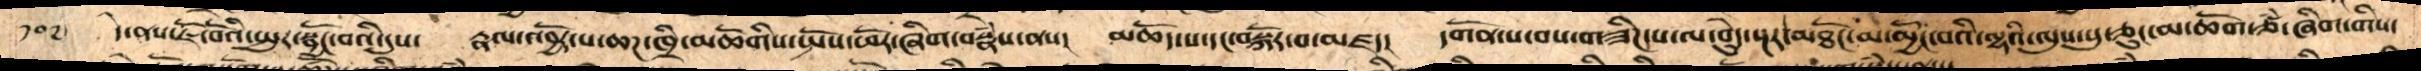༡༠༧  དེ་ནས་ཇོ་བོའི་སྤུར་སྦྱོང་བའི་དུས་   རྣལ་འབྱོར་པ་ཆཌ་ཁྲི་མཆོགིས་སྤོས་ཕོར་ཞིག་བསྣཾས་ནས།   མཆོད་པ་དང་བསྐོར་བ་མཛད།   དགོན་པ་བས་གཟིཌ་པ་ལ་བེུད་སྔར་མཐོང་མ་མྱོང་བ་ལྷའི་ལུས་སུ་ཅུང་མ་ཆོག་ཙཾ་ཞིག་གིས་
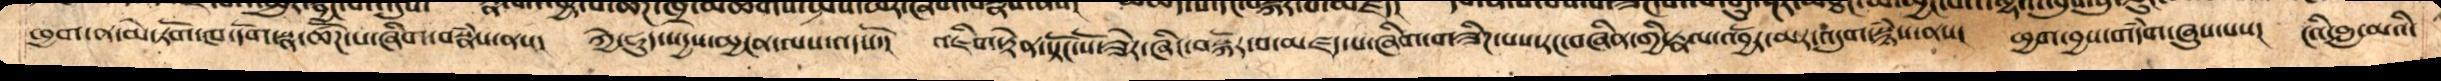ཕྱག་ན་མེ་ཏོག་ཁ་དོག་སྣ་ཚོཌ་པ་ཞིག་བསྣཾས་ནས།  ཀྱེ་ཧུད་སདྱས་མྱ་ངན་ལས་འདསོ་།  འཇིག་རྟེན་སྟོང་སོ་ཟེར་ཞིང་བསྐོར་བ་མཛད་པ་ཞིག་གཟིཌ་པས་རང་བཞིན་གྱི་རྣལ་འབྱོར་མར་འདུག་སྙཾས་ནས། ཕྱག་བྱས་གདཾག་ཞུས་པས། ངའི་བླ་མའི་
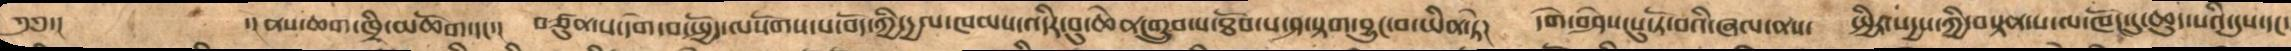༄༅་།     ་།ནས་ཆག་ཁྲི་མཆོག་དང་།   བཙུན་པ་དགེ་བ་སྤྱོད་ལསོགས་པ་བོད་ཀྱི་དྱལ་ཁམས་འདིར་བུ་ཆེན་གྲུབ་པ་ཐོབ་པ་ཤ་སྟག་བྱུང་བ་ཡིན་ཏེ།   དགེ་བཤེས་པུ་ཏོ་བའི་ཞལ་ནས།   སྤྱིར་སདྱས་ཀྱི་བསྟན་པ་ལ་ཁོང་དུ་ཆུད་པའི་དུས་དང་
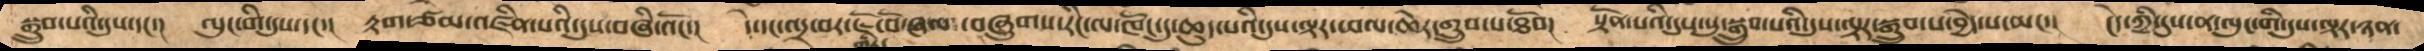སྒྲུབ་པའི་དུས་དང་།  ལུང་གི་དུས་དང་།  རྟག་ཙམ་འཛིན་པའི་དུས་བཞི་འོང་།    དེ་དང་འདྲ་བར་ཇོ་བོ་ཞལ་བཞུགས་རིང་ལ་ཁོང་དུ་ཆུད་པའི་དུས་ལྟར་ཕལ་ཆེར་གྲུབ་པ་ཐོབ།   སྟོན་པའི་དུས་སུ་སྒྲུབ་པའི་དུས་ལྟར་སྒྲུབ་པ་བྱེད་པ་མང་།   ངེད་ཀྱི་དུས་ན་ལུང་གི་དུས་ལྟར་ཉན་
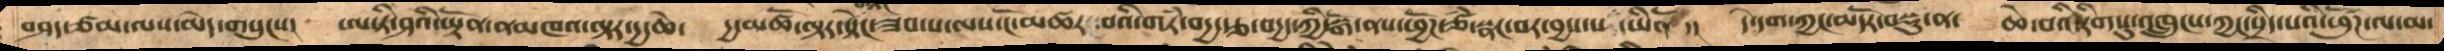བཤད་ཙམ་ལས་མེད་གསུངས།   ཨ་ཏི་ཤའི་ཡྟོན་ནམཁའ་ལྟར་དྱ་ཆེ།   རྒྱ་མཚོ་ལྟར་སྟེང་ཟབ་པ་ལས་ངོ་མཚར་བའི་གཏཾ་བདྱ་རྩ་བདྱད་ཀྱི་སྒོ་ནས་ཕྱོཌ་ཙཾ་སྣང་བར་བྱས་པ་ཡིན་ནོ།   དེ་དག་ཀྱང་མདོར་བསྡུ་ན་  ཆེ་བའི་རིགསུ་སྐུ་འཁྲུངས་ཀྱང་སྲིད་པའི་ཕུཚོཌ་ལ་མ་
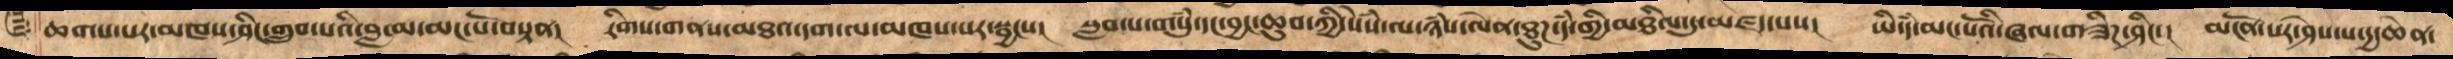ཆགས་པར་མཁས་ཤིང་གྲུབ་པའི་བླ་མ་མང་པོ་བསྟན། རིགས་གནས་མཐའ་དག་ལ་མཁས་པར་སྦྱངས།  སླབ་པ་གསུཾ་དང་བྱང་ཆུབ་ཀྱི་སེཾས་ལ་ཉཾས་ལེན་ཐུཌ་དཾ་གྱི་མཐིལ་དུ་མཛད་པས། ཡི་དཾ་མང་པོའི་ཞལ་གཟིཌ་ཤིང་། མངོན་པར་ཤེས་པ་དྱ་ཆེན་
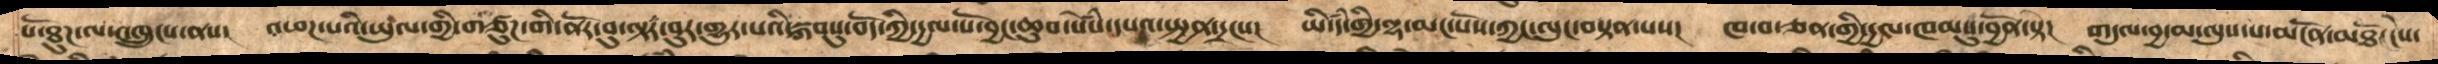པོ་ཐུཌ་ལ་འཁྲུངས་ནས།   འཕཌ་པའི་ཡུལ་གྱི་གཙུཌ་གི་ནོར་བུ་ལྟར་བུར་གྱུར་པའི་སྐབསུ་བོད་ཀྱི་དྱལ་པོ་བྱང་ཆུབ་སེཾས་དཔའ་སྤྱན་དྲངས།   ཡི་དཾ་གྱི་ལྷ་མང་པོས་ཀྱང་ལུང་བསྟན་པས།   ཁ་བ་ཅན་གྱི་དྱལ་ཁམསུ་བྱོན་སྟེ།   གདུལ་བྱ་མ་ལུས་པ་མངོན་མཐོ་ངེས་
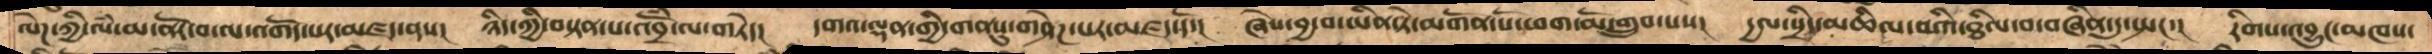ལེཌ་ཀྱི་ལཾ་མ་ནོར་བ་ལ་འགོད་པར་མཛད་ནས།   ཉིད་ཀྱི་བསྟན་པ་འབྲོཾ་ལ་གཏེད།    དགའ་ལྡན་གྱི་གནསུ་གཤེཌ་པར་མཛད་དོ།    ཞེས་བྱ་བ་ཡིན་ཏེ་མགོན་པོ་ཕག་མོ་གྲུབ་པས།   དྱལ་སྲིད་མཆིལ་མའི་ཐིལ་བ་བཞིན་དུ་སྤང་།  རིགས་འབྱུང་མཁས་
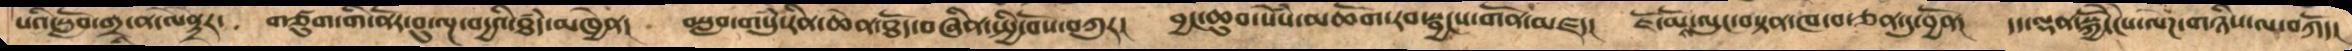པའི་སློབ་གྲྭ་ན་ལེནྡྲར་  གཙུག་གི་ནོར་བུ་ལྔ་བདྱའི་ཐཾད་མཁྱེན།   བསླབ་གསུཾ་རིན་ཆེན་ཐོད་བཞིན་སྤྱི་བོས་བཀུར།  བྱང་ཆུབ་སེཾས་མཆོག་རབ་སྦྱངས་གོན་མཛད།   ཇོ་མོས་ལུང་བསྟན་ཁ་བ་ཅན་དུ་བྱོན།   དད་ལྡན་སྐྱོེ་ངེས་ལེཌ་གཉིས་ལ་བཀོད།
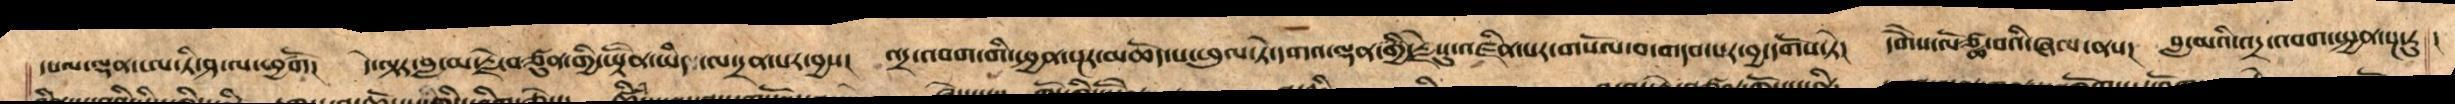དཔལ་ལྡན་ཨ་ཏི་ཤ་ལ་ཕྱགཚལོ།  དེ་ལྟར་བླ་མ་རྗེ་བཙུན་གྱི་ཡྟོན་ཡིད་ལ་དྲན་པར་བྱས། འདྲ་འབག་གི་སྤྱན་སྔར་མཆོད་པ་ཕུལ་ཏེ་དགའ་ལྡན་གྱི་རྗེསུ་འཛིན་པར་གསོལ་བ་གདབ་པར་བྱ་དགོས་ཏེ། དགཻས་ལོཙྪ་བའི་ཞལ་ནས། བླ་མའི་འདྲ་འབག་སྤྱན་སྔ་རུ །
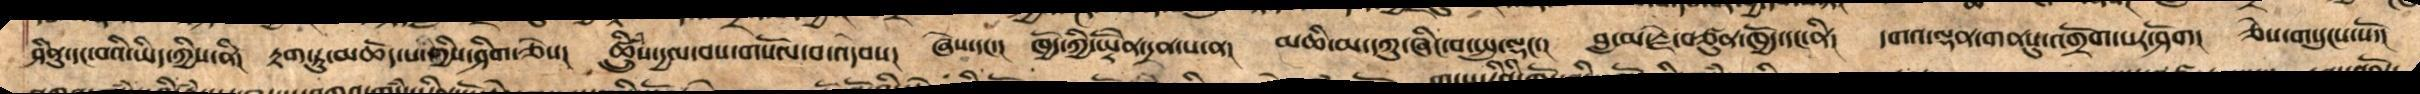ཤིནུ་དང་བའི་ཡིད་ཀྱིས་ནི།  རྟག་ཏུ་མཆོད་པ་གྱིས་ཤིག་ཅེས། ཚྲིུཾས་དྱལ་བས་གསོལ་བ་འདེབས།  ཞེས་དང་།  ཁྱོད་ཀྱི་ཡྟོེན་དྲན་པ་ན།   མཆི་མ་དཀུ་ཞིང་བ་སྤུ་ལྡང་།   བླ་མ་རྗེ་བཙུན་ཁྱོད་དང་ནི།  དགའ་ལྡན་གནསུ་འགྲོག་པར་ཤོག།  ཅེས་གསུངས་སོ་།
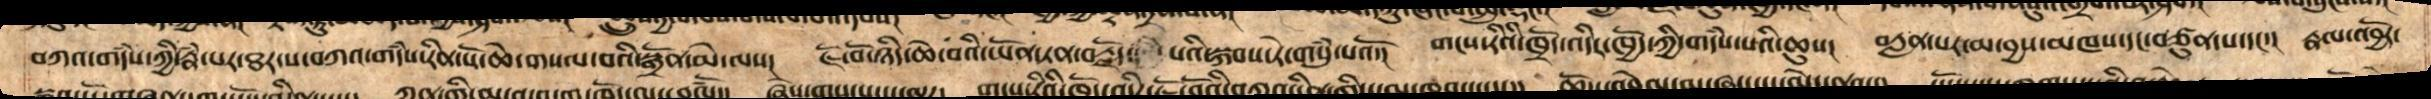བཀའ་གདཾས་ཀྱི་རྣཾ་པར་ཐར་པ་བཀའ་གདཾས་རིན་པོ་ཆེ་གསལ་བའི་སྒྲོན་མེ་ལས། ཇོ་བོ་ཉིད་ཆེ་བའི་ཡོན་ཏན་བརྗོད་པའི་སྐབས་ཏེ་གསུཾ་པའོ། གངས་རིའི་ཁྲོད་འདིར་ཁྱོད་ཀྱི་གདཾས་པའི་ཆུས། བརླན་པར་མ་བྱས་མཁས་དང་བཙུན་པ་དང་།  རྣལ་འབྱོར་
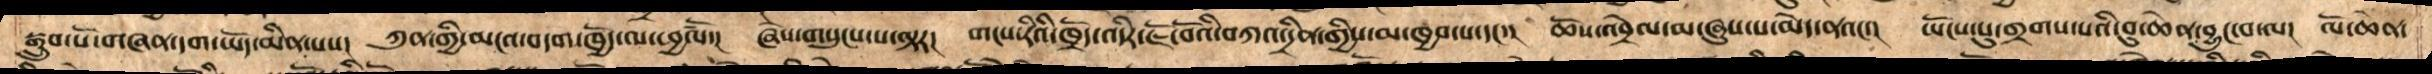སྒྲུབ་པོ་གཞན་དག་ཡོད་མིན་པས།   ཀུན་གྱི་མངའ་བདག་ཁྱོད་ལ་ཕྱཚལོ།   ཞེས་གསུངས་པ་ལྟར།   གངས་རིའི་ཁྲོད་འདིར་ཇོ་བོའི་བཀའ་དྲིན་གྱིས་མ་ཁྱབ་པ་དང་།   ཆོས་འབྲེལ་མ་ཞུས་པ་མེད་ནའང་།   ཡོངས་སུ་གྲགས་པའི་བུ་ཆེན་བྱུང་བ་ལ།  ལོ་ཆེན་
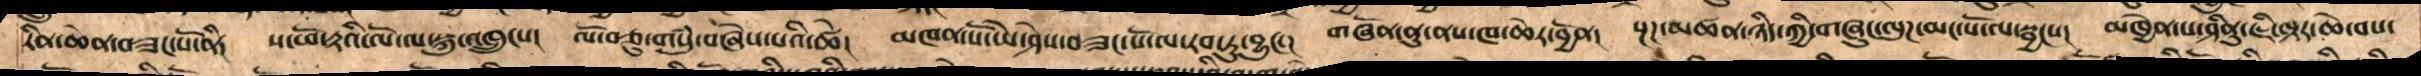རིན་ཆེན་བཟང་པོ་ནི།  ས་ཕོ་རྟའི་ལོ་ལ་སྐུ་འཁྲུངས།   ལོ་བཅུ་གསུཾ་བཞེས་པའི་ཚེ།  མཁན་པོ་ཡེ་ཤེས་བཟང་པོ་ལ་རབ་ཏུ་བྱུང་།   གཞོན་ནུ་ནས་ཁ་ཆེར་བྱོན།   སྔཌ་མཚན་ཉིད་ཀྱི་གཞུང་ལུཌ་མང་པོ་ལ་སྦྱངས།  མཁྱེན་པ་ཤིནུ་ཇི་ལྟར་་ཆེ་བས་
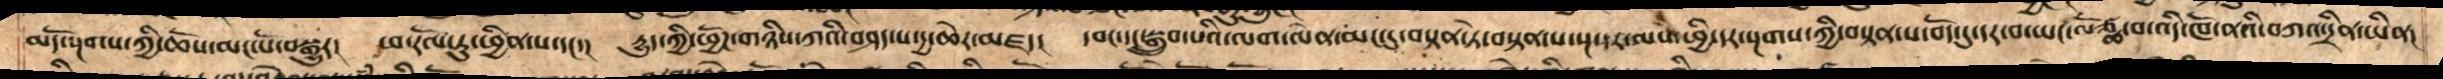མདོ་སྔགས་ཀྱི་ཆོས་མང་པོ་བསྒྱུར།   ཕ་རོལ་ཏུ་ཕྱིན་པ་དང་།    དྱུད་ཀྱི་ཕྱོཌ་གཉིས་ཀའི་བཤད་པ་དྱ་ཆེར་མཛད།   དབང་དང་སྒྲུབ་པའི་ལག་ལེན་མང་དུ་བསྟན་ཏེ་བསྟན་པ་སྔ་དར་ལས་ཕྱི་དར་སྔགསཀྱི་བསྟན་པ་བོད་དུ་དར་བ་ཡང་ལོཙྪ་བ་འདི་ཁོ་ནའི་བཀའ་དྲིན་ཡིན།
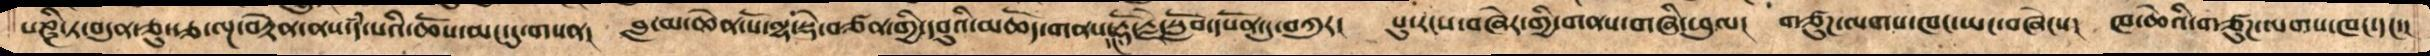པཎྜི་ཏ་བདུན་ཅུ་རྩ་ལྔ་བརྟེན་ནས་དཾ་པའི་ཆོས་མང་དུ་གསན།   བླ་མ་ཆེན་པོ་ལྷ་སྡེ་བཙན་གྱི་དབུའི་མཆོད་གནས་དང་རྡོ་རྗེ་སློབ་དཔོན་དུ་བཀུར།  པུ་རངས་བཞེར་གྱི་གནས་གཞི་ཕུལ།  གཙུཌ་ལགས་ཁང་ཡང་བཞེངས།   ཁ་ཆེའི་གཙུཌ་ལགས་ཁང་དང་།
